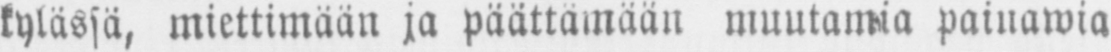kylässä, miettimään ja päättämään muutamia painawia
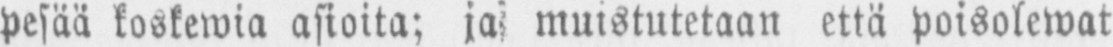pesää koskewia asioita; ja muistutetaan että poisolewat
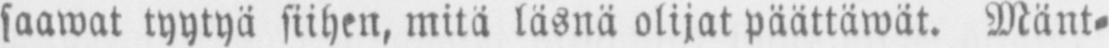saawat tyytyä siihen, mitä läsnä olijat päättäwät. Mänt-
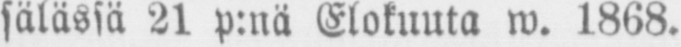sälässä 21 p:nä Elokuuta W. 1868.
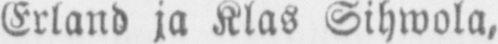Erland ja Klas Sihwola,
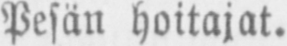Pesän hoitajat.
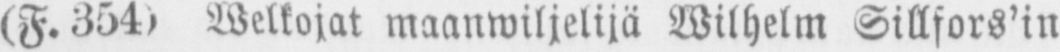(F.354) Welkojat maanwiljelijä Wilhelm Sillfors'in
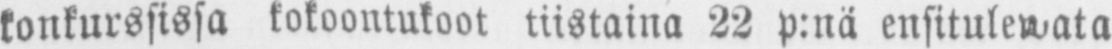konkurssissa kokoontukoot tiistaina 22 p:nä ensitulewata
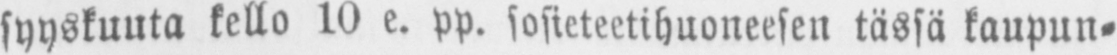syyskuuta kello 10 e. pp. sosieteetihuoneesen tässä kaupun-
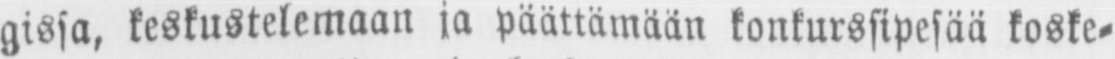gissa, keskustelemaan ja päättämään konkurssipesää koske-
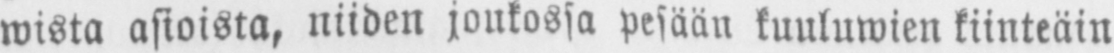wista asioista, niiden joukossa pesään kuuluwien kiinteäin
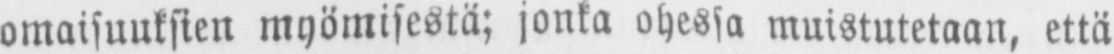omaisuuksien myömisestä; jonka ohessa muistutetaan, että
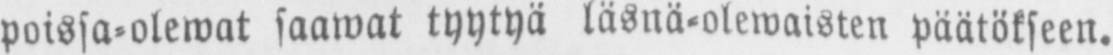poissa-olewat saawat tyytyä läsnä-olewaisten päätökseen.
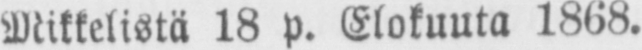Mikkelistä 18 p. Elokuuta 1868.
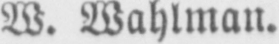W. Wahlman.
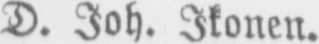D. Joh. Ikonen.
